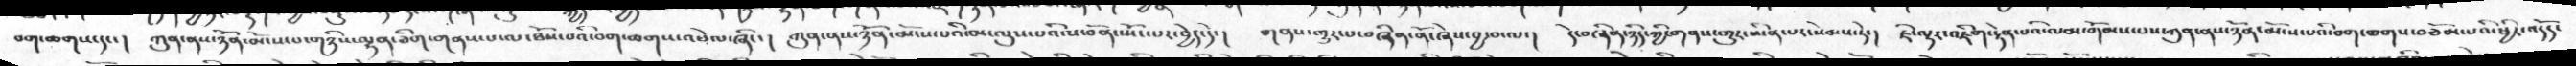བག་ཆགས་དང་།   ཀུན་ནས་ཉོན་མོངས་པ་གཉིས་ལྷན་ཅིག་གནས་པ་ལ་ཐོས་པའི་བག་ཆགས་འཕེལ་ཞིང་།   ཀུན་ནས་ཉོན་མོངས་པའི་མ་ལུས་པའི་ས་བོན་སྤོང་པར་བྱེད་དེ་།   གནས་གྱུར་པ་བཞིན་ནོ་ཞེས་བྱ་བ་ལ་།   དེ་བཞིན་ཉིད་ཀྱི་གནས་གྱུར་ཡིན་པར་སེམས་ཏེ་།   ཇི་ལྟར་འཇིག་རྟེན་པའི་ལམ་གོམས་པས་ཀུན་ནས་ཉོན་མོངས་པའི་བག་ཆགས་བཅོམ་པའི་ཕྱིར་འདོད་
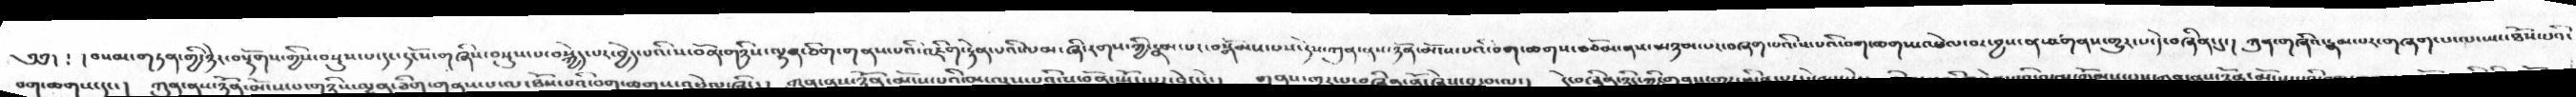༄༅།  ༴ །བསམ་གཏན་གྱི་ཉེར་བསྡོགས་གྱིས་བསྡུས་པ་དང་དངོས་གཞིས་བསྡུས་པ་བསྐྱེད་པར་བྱེད་པའི་བ་སོན་གཉིས་ལྷན་ཅིག་གནས་པའི་འཇིག་རྟེན་པའི་ལམ་ཞི་རགས་ཀྱི་རྣམ་པར་བསྒོམས་པས་དེས་ཀུན་ནས་ཉོན་མོངས་པའི་བག་ཆགས་བཅོམ་ནས་མཉམ་པར་བཞག་པའི་ས་པའི་བག་ཆགས་འཕེལ་བར་བྱས་ནས་གནས་གྱུར་པ་དེ་བཞིན་དུ་།   ཀུན་གཞིའ་རྣམ་པར་གཞག་པ་ལ་ཡང་ཐོས་པའི་
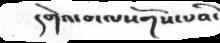དགེའ་བ་ལསོགས་པབི་
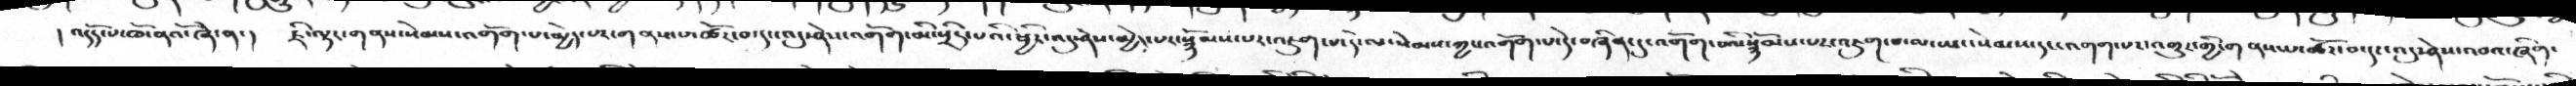།འདོད་པ་ཁོ་ནའོ་ཞེ་ན་།   ཇི་ལྟར་གནས་སེམས་འགོག་པ་མྱེད་པར་གནས་པ་ཚོར་བ་དང་འདུ་ཤེས་འགོག་མི་སྲིད་པའི་ཕྱིར་འདུ་ཤེས་མྱེད་པ་སྙོམས་པར་འཇུག་པ་དེ་ལ་སེམས་ཀྱང་འགོག་པ་དེ་བཞིན་དུ་འགོག་པའི་སྙོམས་པར་འཇུག་པ་ལ་ཡང་སེམས་དང་འགག་པར་འགྱུར་གྱི་གནས་པ་ཚོར་བ་དང་འདུ་ཤེས་འབའ་ཞིག་
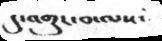དུ་འགྱུར་བ་ལས་
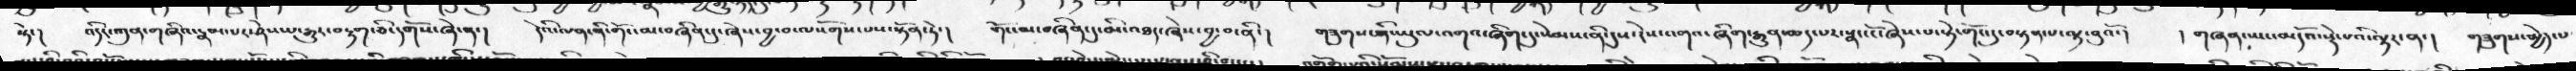སྟེ་།    འདིར་ཀུན་གཞིའ་རྣམ་པར་ཤེས་པ་རྒྱུར་བརྟག་ཅི་དགོས་ཞེ་ན་།   དེའི་ལན་ནི་གོང་མ་བཞིན་དུ་ཞེས་བྱ་བ་ལསོགས་པས་སྟོན་ཏེ་།   གོང་མ་བཞིན་དུ་མི་འཐད་ཞེས་བྱ་བ་ནི་།   གཟུགས་ནི་ཡུལ་འགའ་ཞིག་དུ་སེམས་ནི་དུས་ངེས་འགའ་ཞིག་རྒྱུན་ཆད་པར་སྣང་ངོ་ཞེས་པ་སྟེ་གོང་དུ་བསྟན་པ་ལྟ་བུའོ་།   ། གཞན་ཡང་མདོའ་སྡེ་པའི་ལྟར་ན་།  གཟུགས་མྱེད་པ
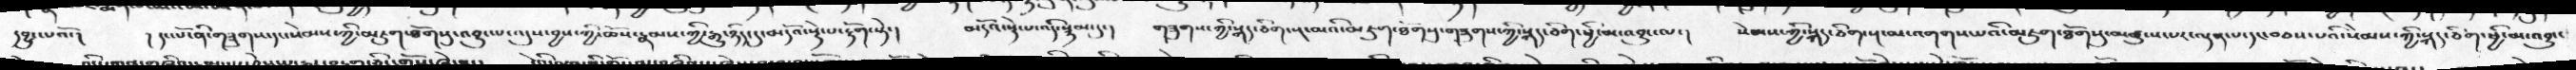དབྱུང་པའོ་།   །དང་པོ་ནི་གཟུགས་དང་སེམས་ཀྱི་མཇུག་ཐོགསུ་འབྱུང་པ་འདུས་བྱས་ཀྱི་ཆོས་རྣམས་ཀྱི་རྒྱུ་ཉིད་དུ་མདོའ་སྡེ་པ་རྟོག་སྟེ་།   མདོའ་སྡེ་པ་འདི་སྙམ་དུ་།  གཟུགས་ཀྱི་སྐད་ཅིག་སྔ་མའི་མཇུག་ཐོགསུ་གཟུགས་ཀྱི་སྐད་ཅིག་ཕྱི་མ་འབྱུང་ལ་།   སེམས་ཀྱི་སྐད་ཅིག་སྔ་མ་འགགས་པའི་མཇུག་ཐོགསུ་མཚུངས་པར་ལྡན་པ་དང་བཅས་པའི་སེམས་ཀྱི་སྐད་ཅིག་ཕྱི་མ་འབྱུང་
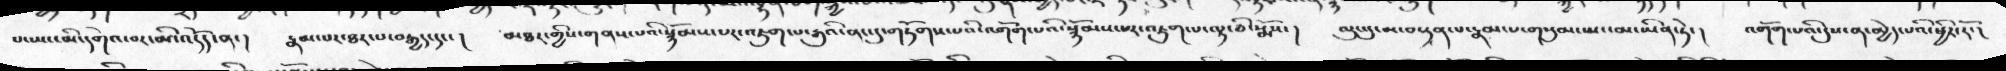པ་ཡང་མི་དགེའ་བར་མི་འདོད་ན་།   རྣམ་པར་ཐར་པ་བརྒྱད་དང་།   མཐར་གྱིས་གནས་པའི་སྙོམས་པར་འཇུག་པ་རྒུའི་ནང་དུ་གཏོགས་པའི་འགོག་པའི་སྙོམས་པར་འཇུག་པ་ལྟ་ཅི་སྨོས་།   ལུང་དུ་མ་བསྟན་པ་རྣམ་པ་གསུམ་ཡང་མ་ཡིན་ཏེ་།   འགོག་པའི་དུས་ན་མྱེད་པའི་ཕྱིར་རོ་།
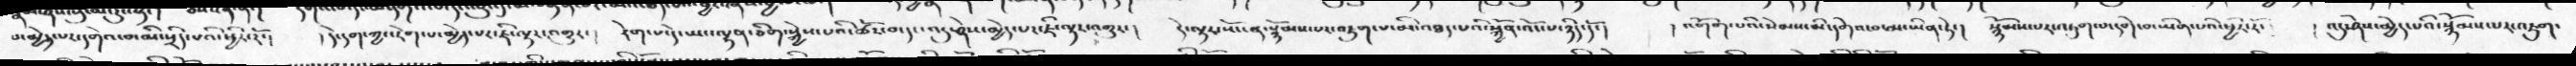པ་མྱེད་པར་དགེའ་བ་མི་སྲིད་པའི་ཕྱིར་རོ་།   །དེ་དག་ཀྱང་རེག་པ་མྱེད་པར་ཇི་ལྟར་འགྱུར་།   རེག་པ་དེ་ཡང་ལྷན་ཅིག་སྐྱེས་པའི་ཚོར་བ་དང་འདུ་ཤེས་མྱེད་པར་ཇི་ལྟར་འགྱུར་།   དེ་ལྟར་སོང་ན་སྙོམས་པར་འཇུག་པ་མི་འཐད་པའི་སྐྱོན་འོང་པ་ཉིད་དོ་།    ། འགོག་པའི་སེམས་མི་དགེ་བ་མ་ཡིན་ཏེ་།   སྙོམས་པར་འཇུག་པ་དགེ་བ་ཡིན་པའི་ཕྱིར་རོ་།    ། འདུ་ཤེས་མྱེད་པའི་སྙོམས་པར་འཇུག་
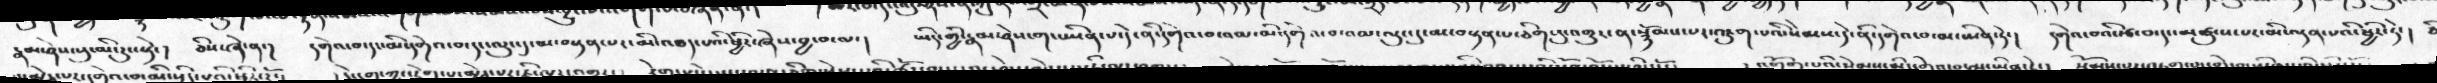རྣམ་ཤེས་སུ་མི་རུང་སྟེ་།  ཅིས་ཞེ་ན་།  དགེའ་བ་དང་མི་དགེའ་བ་དང་ལུང་དུ་མ་བསྟན་པར་མི་འཐད་པའི་ཕྱིར་ཞེས་བྱ་བ་ལ་།   ཡིད་གྱི་རྣམ་ཤེས་གང་ཡིན་པ་དེ་ནི་དགེའ་བ་འམ་མི་དགེའ་བ་འམ་ལུང་དུ་མ་བསྟན་པ་ཅིག་དུ་འགྱུར་ན་སྙོམས་པར་འཇུག་པའི་སེམས་དེ་ནི་དགེའ་བ་མ་ཡིན་ཏེ་།   དགེའ་བའི་རྩ་བ་དང་མཚུངས་པར་མི་ལྡན་པའི་ཕྱིར་ཏེ་།  ཅི
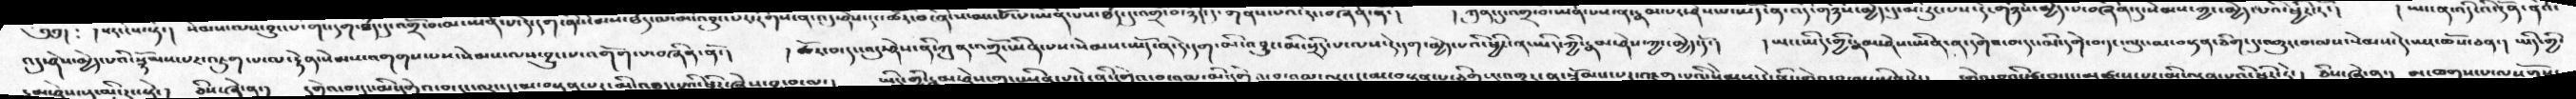འདུ་ཤེས་མྱེད་པའི་སྙོམས་པར་འཇུག་པ་ལ་རྟེན་སེམས་འགགས་པས་སེམས་ལས་བྱུང་པ་འགོག་པ་བཞིན་ནོ་།   །ཚོར་བ་དང་འདུ་ཤེས་ནི་ཀུན་འགྲོ་ཡིན་པས་སེམས་ཡོད་ན་དེ་དག་མི་འབྱུང་མི་སྲིད་པ་ལས་དེ་དག་མྱེད་པའི་ཕྱིར་ན་ཡིད་ཀྱི་རྣམ་ཤེས་ཀྱང་མྱེད་དོ་།  །ཡང་ཡིད་ཀྱི་རྣམ་ཤེས་ཡིན་ན་དགེའ་བ་དང་མི་དགེ་བ་དང་ལུང་མ་བསྟན་ཅིག་དུ་འགྱུར་བ་ལས་སེམས་དེ་ཡང་ཆོས་ཅན་།  ཡིད་གྱི་
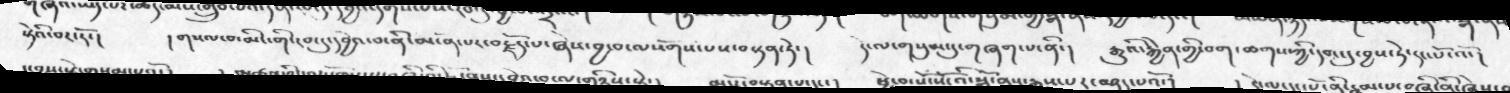སྟེའི་བར་ཏོ་།   །གསལ་བ་མིང་གི་རབ་དུ་དབྱེའ་བ་ནི་མངོན་པར་བརྗོད་པ་ཞེས་བྱ་བ་ལསོགས་པས་བསྟན་ཏེ་།   དེ་ལ་གསུམ་དུ་གཞག་པ་ནི་།   རྒྱུའི་རྐྱེན་གྱི་བག་ཆགས་ཀྱི་དབང་དུ་བྱས་ཏེ་དང་པོ་འོ་།
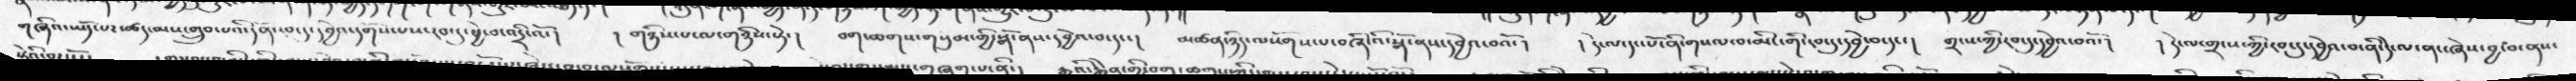གཞིའ་ཡོད་པར་ཚད་མས་གྲུབ་པའི་དོན་རབ་དུ་དབྱེའ་དགོས་པས་རབ་དུ་ཕྱེ་བ་འདྲི་འོ་།   །གཉིས་པ་ལ་གཉིས་སྟེ་།   བག་ཆགས་གསུམ་གྱི་སྒོ་ནས་དབྱེའ་བ་དང་།   མཚན་ཉིད་ལསོགས་པ་བཞི་འི་སྒོ་ནས་དབྱེའ་བའོ་།   །དེ་ལ་དང་པོ་ནི་གསལ་བ་མིང་གི་རབ་དུ་དབྱེའ་བ་དང་།  གྲངས་ཀྱི་རབ་དུ་དབྱེའ་བའོ་།   །དེ་ལ་གྲངས་ཀྱི་རབ་དུ་དབྱེའ་བ་ནི་དེ་ལ་གང་ཞེས་བྱ་བ་ནས་
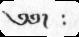༄༅།    ༴
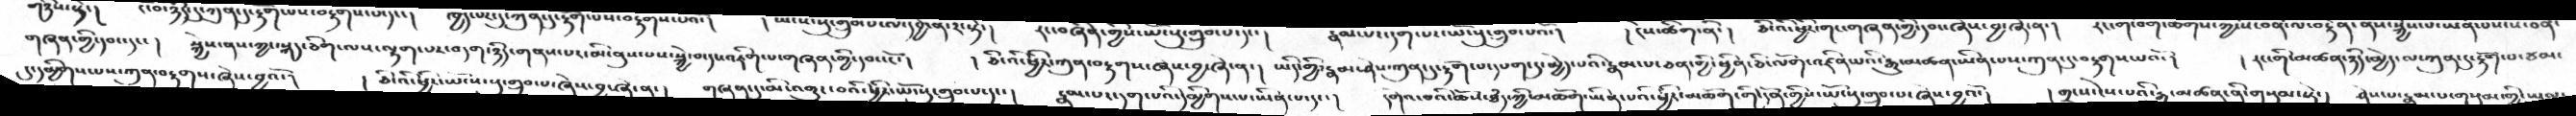གཞན་གྱི་དབང་དང་།   སྐྱེས་ནས་ཀྱང་སྐད་ཅིག་ལས་ལྷག་པར་བདག་ཉིད་གནས་པར་མི་ནུས་པས་སྐྱེ་བ་དང་འཇིག་པ་གཞན་གྱི་དབང་ངོ་།   །ཅི་འི་ཕྱིར་ཀུན་བརྟགས་ཞས་བྱ་ཞེ་ན་།   ཡིད་གྱི་རྣམ་ཤེས་ཀུན་དུ་རྟོག་པ་དཔག་དུ་མྱེད་པའི་རྣམ་པ་ཅན་གྱི་ཕྱིན་ཅི་ལོག་འཛིན་པའི་རྒྱུ་མཚན་ཡིན་པས་ཀུན་དུ་བརྟགས་པའོ་།   །རང་གི་མཚན་ཉིད་མྱེད་ལ་ཀུན་དུ་རྟོག་པ་ཙམ་
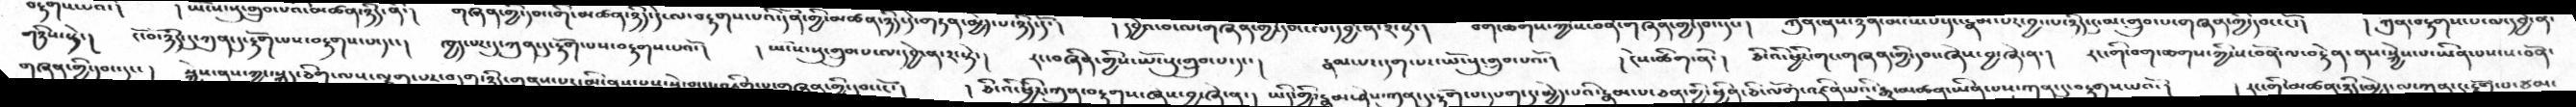གཉིས་སྟེ་།   ངོ་བོ་ཉིད་དུ་ཀུན་དུ་རྟོག་པས་བརྟགས་པ་དང་།   ཁྱད་པར་དུ་ཀུན་དུ་རྟོག་པས་བརྟགས་པའོ་།   །ཡོངས་སུ་གྲུབ་པ་ལ་དབྱེ་ན་༢་སྟེ་།  རང་བཞིན་གྱིས་ཡོངསུ་གྲུབ་པ་དང་།   རྣམ་པར་དག་པར་ཡོངསུ་གྲུབ་པའོ་།  །ངེས་ཚིག་ནི་།   ཅི་འི་ཕྱིར་གང་གཞན་གྱི་དབང་ཞེས་བྱ་ཞེ་ན་།   རང་གི་བག་ཆགས་ཀྱི་ས་བོན་བརྟེན་ནས་སྐྱེས་པ་ཡིན་པས་ས་བོན་
